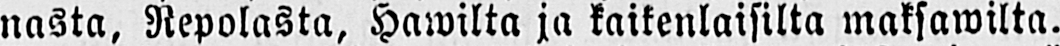nasta, Repolasta, Hawilta ja kaikenlaisilta maksawilta.
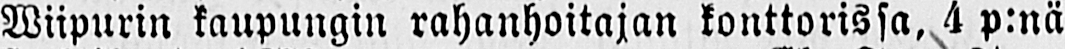Viipurin kaupungin rahanhoitajan konttorissa, 4 p:nä
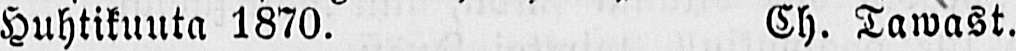Huhtikuuta 1870. Ch. Tawast.
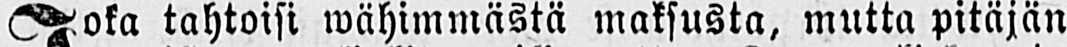Joka tahtoisi wähimmästä maksusta, mutta pitäjän
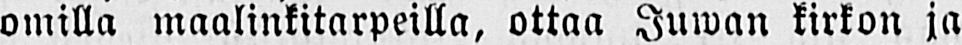omilla maalinkitarpeilla, ottaa Juwan kirkon ja
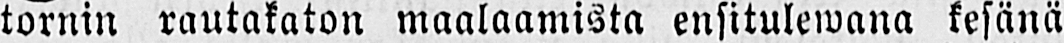tornin rautakaton maalaamista ensitulewana kesänä
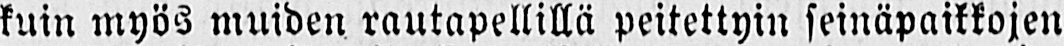kuin myös muiden rautapellillä peitettyin seinäpaikkojen
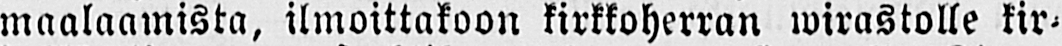maalaamista, ilmoittakoon kirkkoherran wirastolle kir-
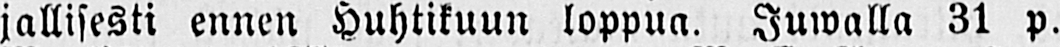jallisesti ennen Huhtikuun loppua. Juwalla 31 p.
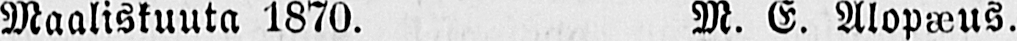Maaliskuuta 1870. M. E. Alopæus.
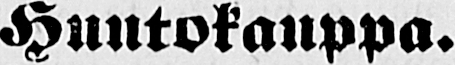Huutokauppa.
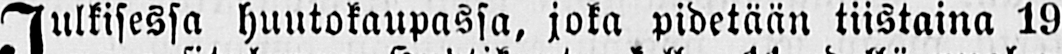Julkisessa huutokaupassa, joka pidetään tiistaina 19
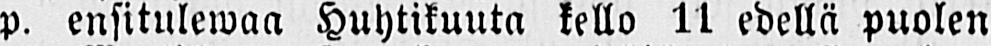p. ensitulewaa Huhtikuuta kello 11 edellä puolen
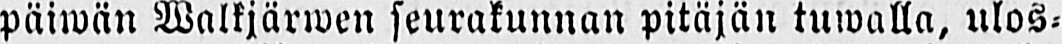päiwän Walkjärwen seurakunnan pitäjän tuwalla, ulos-
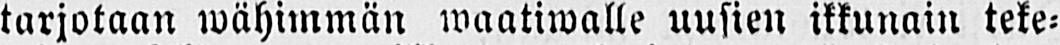tarjotaan wähimmän waatiwalle uusien ikkunain teke-
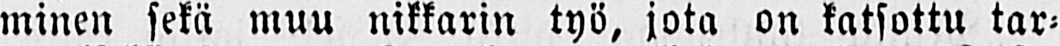minen sekä muu nikkarin työ, jota on katsottu tar-
